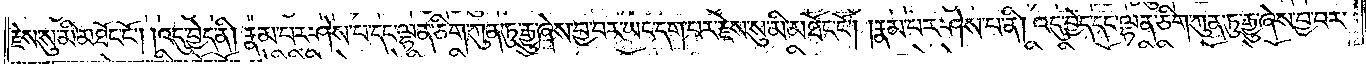རྗེས་སུ་མི་མཐོང་ངོ༌། །འདུ་བྱེད་ནི། རྣམ་པར་ཤེས་པ་དང་ལྷན་ཅིག་ཀུན་ཏུ་རྒྱུ་ཞེས་བྱ་བར་ཡང་དག་པར་རྗེས་སུ་མི་མཐོང་ངོ༌། །རྣམ་པར་ཤེས་པ་ནི། འདུ་བྱེད་དང་ལྷན་ཅིག་ཀུན་ཏུ་རྒྱུ་ཞེས་བྱ་བར་
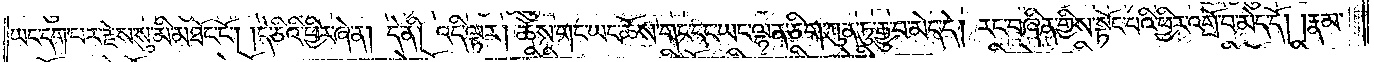ཡང་དག་པར་རྗེས་སུ་མི་མཐོང་ངོ༌། །དེ་ཅིའི་ཕྱིར་ཞེ་ན། དེ་ནི། འདི་ལྟར། ཆོས་གང་ཡང་ཆོས་གང་དང་ཡང་ལྷན་ཅིག་ཀུན་ཏུ་རྒྱུ་བ་མེད་དེ། རང་བཞིན་གྱིས་སྟོང་པའི་ཕྱིར་འགྲོ་བ་མེད་དོ། །རྣམ་
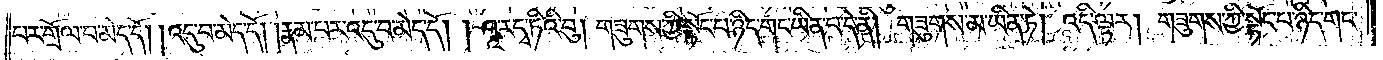པར་གྲོལ་བ་མེད་དོ། །འདུ་བ་མེད་དོ། །རྣམ་པར་འདུ་བ་མེད་དོ། །ཤཱ་རདྭ་ཏིའི་བུ། གཟུགས་ཀྱི་སྟོང་པ་ཉིད་གང་ཡིན་པ་དེ་ནི། གཟུགས་མ་ཡིན་ཏེ། འདི་ལྟར། གཟུགས་ཀྱི་སྟོང་པ་ཉིད་གང་
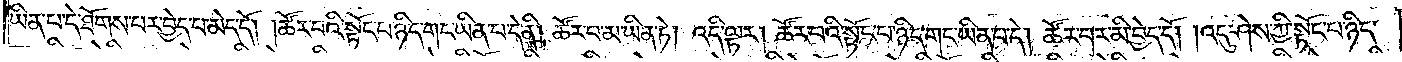ཡིན་པ་དེ་ཐོགས་པར་བྱེད་པ་མེད་དོ། །ཚོར་བའི་སྟོང་པ་ཉིད་གང་ཡིན་པ་དེ་ནི། ཚོར་བ་མ་ཡིན་ཏེ། འདི་ལྟར། ཚོར་བའི་སྟོང་པ་ཉིད་གང་ཡིན་བ་དེ། ཚོར་བར་མི་བྱེད་དོ། །འདུ་ཤེས་ཀྱི་སྟོང་པ་ཉིད་
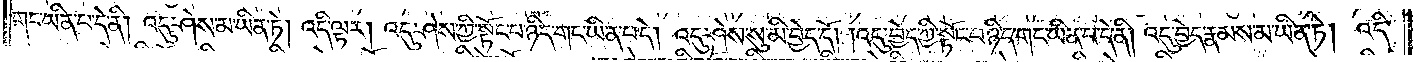གང་ཡིན་པ་དེ་ནི། འདུ་ཤེས་མ་ཡིན་ཏེ། འདི་ལྟར། འདུ་ཤེས་ཀྱི་སྟོང་པ་ཉིད་གང་ཡིན་པ་དེ། འདུ་ཤེས་སུ་མི་བྱེད་དོ། །འདུ་བྱེད་ཀྱི་སྟོང་པ་ཉིད་གང་ཡིན་པ་དེ་ནི། འདུ་བྱེད་རྣམས་མ་ཡིན་ཏེ། འདི་
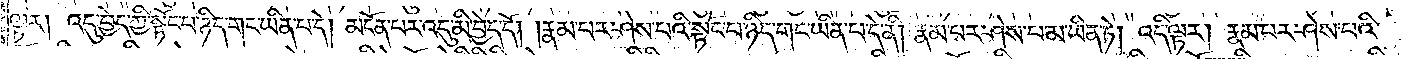ལྟར། འདུ་བྱེད་ཀྱི་སྟོང་པ་ཉིད་གང་ཡིན་པ་དེ། མངོན་པར་འདུ་མི་བྱེད་དོ། །རྣམ་པར་ཤེས་པའི་སྟོང་པ་ཉིད་གང་ཡིན་པ་དེ་ནི། རྣམ་པར་ཤེས་པ་མ་ཡིན་ཏེ། འདི་ལྟར། རྣམ་པར་ཤེས་པའི་
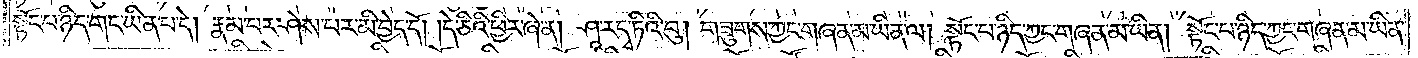སྟོང་པ་ཉིད་གང་ཡིན་པ་དེ། རྣམ་པར་ཤེས་པར་མི་བྱེད་དོ། །དེ་ཅིའི་ཕྱིར་ཞེ་ན། ཤཱ་རདྭ་ཏིའི་བུ། གཟུགས་ཀྱང་གཞན་མ་ཡིན་ལ། སྟོང་པ་ཉིད་ཀྱང་གཞན་མ་ཡིན། སྟོང་པ་ཉིད་ཀྱང་གཞན་མ་ཡིན་
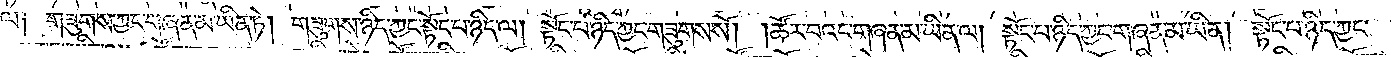ལ༑ གཟུགས་ཀྱང་གཞན་མ་ཡིན་ཏེ། གཟུགས་ཉིད་ཀྱང་སྟོང་པ་ཉིད་ལ། སྟོང་པ་ཉིད་ཀྱང་གཟུགས་སོ། །ཚོར་བའང་གཞན་མ་ཡིན་ལ། སྟོང་པ་ཉིད་ཀྱང་གཞན་མ་ཡིན། སྟོང་པ་ཉིད་ཀྱང་
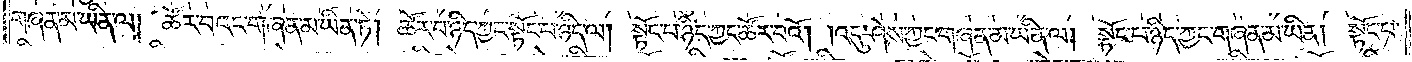གཞན་མ་ཡིན་ལ། ཚོར་བའང་གཞན་མ་ཡིན་ཏེ། ཚོར་བ་ཉིད་ཀྱང་སྟོང་པ་ཉིད་ལ། སྟོང་པ་ཉིད་ཀྱང་ཚོར་བའོ། །འདུ་ཤེས་ཀྱང་གཞན་མ་ཡིན་ལ། སྟོང་པ་ཉིད་ཀྱང་གཞན་མ་ཡིན། སྟོང་པ་
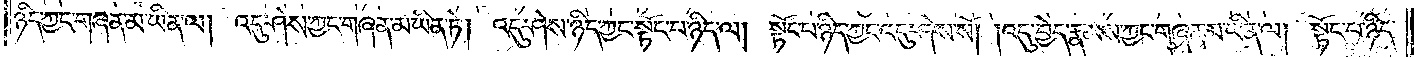ཉིད་ཀྱང་གཞན་མ་ཡིན་ལ། འདུ་ཤེས་ཀྱང་གཞན་མ་ཡིན་ཏེ། འདུ་ཤེས་ཉིད་ཀྱང་སྟོང་པ་ཉིད་ལ། སྟོང་པ་ཉིད་ཀྱང་འདུ་ཤེས་སོ། །འདུ་བྱེད་རྣམས་ཀྱང་གཞན་མ་ཡིན་ལ། སྟོང་པ་ཉིད་
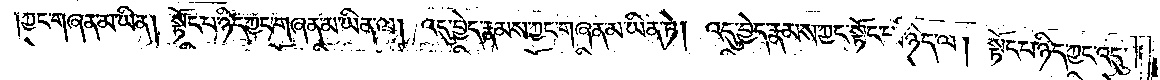ཀྱང་གཞན་མ་ཡིན། སྟོང་པ་ཉིད་ཀྱང་གཞན་མ་ཡིན་ལ། འདུ་བྱེད་རྣམས་ཀྱང་གཞན་མ་ཡིན་ཏེ། འདུ་བྱེད་རྣམས་ཀྱང་སྟོང་པ་ཉིད་ལ། སྟོང་པ་ཉིད་ཀྱང་འདུ་
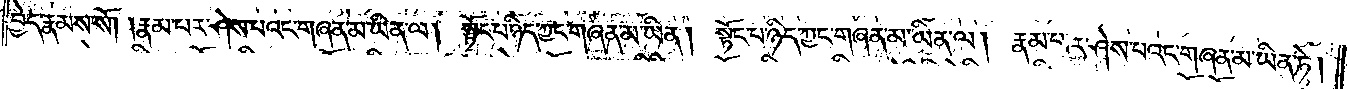བྱེད་རྣམས་སོ། །རྣམ་པར་ཤེས་པའང་གཞན་མ་ཡིན་ལ། སྟོང་པ་ཉིད་ཀྱང་གཞན་མ་ཡིན། སྟོང་པ་ཉིད་ཀྱང་གཞན་མ་ཡིན་ལ། རྣམ་པར་ཤེས་པའང་གཞན་མ་ཡིན་ཏེ།
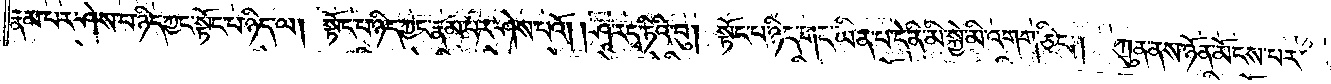རྣམ་པར་ཤེས་པ་ཉིད་ཀྱང་སྟོང་པ་ཉིད་ལ། སྟོང་པ་ཉིད་ཀྱང་རྣམ་པར་ཤེས་པའོ། །ཤཱ་རདྭ་ཏིའི་བུ། སྟོང་པ་ཉིད་གང་ཡིན་པ་དེ་ནི་མི་སྐྱེ་མི་འགག་ཅིང༌། ཀུན་ནས་ཉོན་མོངས་པར་
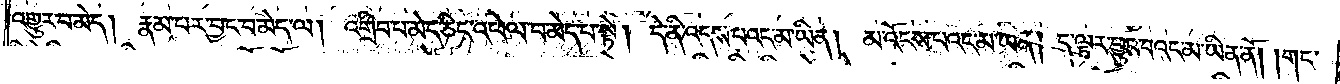འགྱུར་བ་མེད། རྣམ་པར་བྱང་བ་མེད་ལ། འགྲིབ་པ་མེད་ཅིང་འཕེལ་བ་མེད་པ་སྟེ། དེ་ནི་འདས་པའང་མ་ཡིན། མ་འོངས་པའང་མ་ཡིན། ད་ལྟར་བྱུང་བའང་མ་ཡིན་ནོ། །གང་
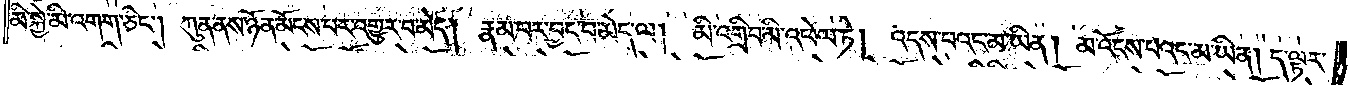མི་སྐྱེ་མི་འགག་ཅིང༌། ཀུན་ནས་ཉོན་མོངས་པར་འགྱུར་བ་མེད། རྣམ་པར་བྱང་བ་མེད་ལ། མི་འགྲིབ་མི་འཕེལ་ཏེ། འདས་པའང་མ་ཡིན། མ་འོངས་པའང་མ་ཡིན། ད་ལྟར་
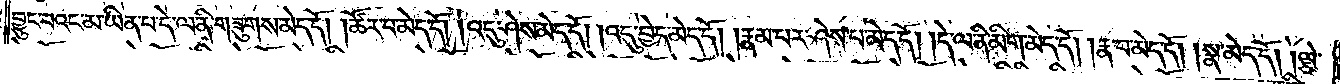བྱུང་བའང་མ་ཡིན་པ་དེ་ལ་ནི་གཟུགས་མེད་དོ། ཚོར་བ་མེད་དོ། འདུ་ཤེས་མེད་དོ། །འདུ་བྱེད་མེད་དོ། །རྣམ་པར་ཤེས་པ་མེད་དོ། །དེ་ལ་ནི་མིག་མེད་དོ། །རྣ་བ་མེད་དོ། །སྣ་མེད་དོ། །ལྕེ་
